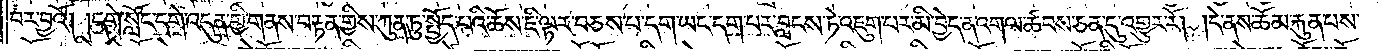བར་བྱའོ། །དགེ་སློང་དགེ་འདུན་གྱི་གནས་བརྟན་གྱིས་ཀུན་ཏུ་སྤྱོད་པའི་ཆོས་ཇི་ལྟར་བཅས་པ་དག་ཡང་དག་པར་བླངས་ཏེ་འཇུག་པར་མི་བྱེད་ན་འགལ་ཚབས་ཅན་དུ་འགྱུར་རོ། །དེ་ནས་ཆོམ་རྐུན་པས་
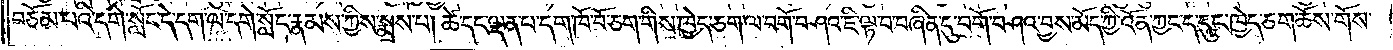བཅོམ་པའི་དགེ་སློང་དེ་དག་ལ་དགེ་སློང་རྣམས་ཀྱིས་སྨྲས་པ། ཚེ་དང་ལྡན་པ་དག་ཁོ་བོ་ཅག་གིས་ཁྱེད་ཅག་ལ་བགོ་བཤའ་ཇི་ལྟ་བ་བཞིན་དུ་བགོ་བཤའ་བྱས་མོད་ཀྱི་འོན་ཀྱང་ད་དུང་ཁྱེད་ཅག་ཆོས་གོས་
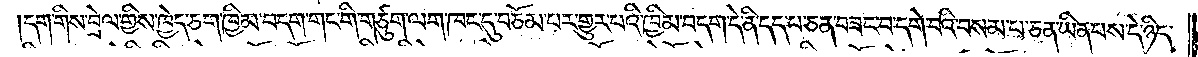།དག་གིས་བྲེལ་གྱིས་ཁྱེད་ཅག་ཁྱིམ་བདག་གང་གི་གཙུག་ལག་ཁང་དུ་བཅོམ་པར་གྱུར་པའི་ཁྱིམ་བདག་དེ་ནི་དད་པ་ཅན་བཟང་བ་དགེ་བའི་བསམ་པ་ཅན་ཡིན་པས་དེ་ཉིད་
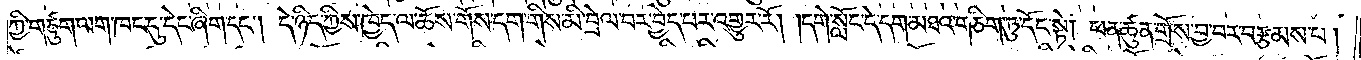ཀྱི་གཙུག་ལག་ཁང་དུ་དེང་ཞིག་དང༌། དེ་ཉིད་ཀྱིས་ཁྱེད་ལ་ཆོས་གོས་དག་གིས་མི་བྲེལ་བར་བྱེད་པར་འགྱུར་རོ། །དགེ་སློང་དེ་དག་མཐའ་གཅིག་ཏུ་དོང་སྟེ། ཕན་ཚུན་གྲོས་བྱ་བར་བརྩམས་པ།
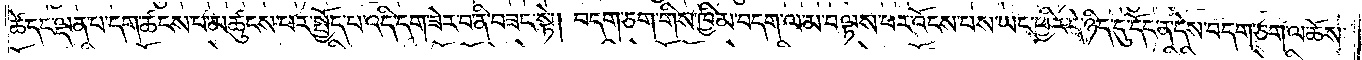ཚེ་དང་ལྡན་པ་དག་ཚངས་པར་མཚུངས་པར་སྤྱོད་པ་འདི་དག་ཟེར་བ་ནི་བཟང་སྟེ། བདག་ཅག་གིས་ཁྱིམ་བདག་ལ་མ་བལྟས་པར་འོངས་པས་ཡང་ཕྱིར་དེ་ཉིད་དུ་དོང་ན་དེས་བདག་ཅག་ལ་ཆོས་
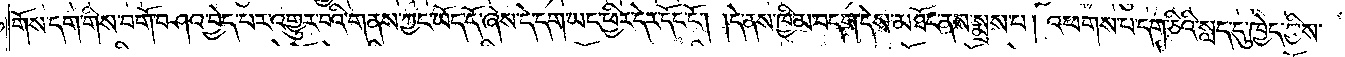གོས་དག་གིས་བགོ་བཤའ་བྱེད་པར་འགྱུར་བའི་གནས་ཀྱང་ཡོད་དོ་ཞེས་དེ་དག་ཡང་ཕྱིར་དེར་དོང་ངོ༌། །དེ་ནས་ཁྱིམ་བདག་དེས་མཐོང་ནས་སྨྲས་པ། འཕགས་པ་དག་ཅིའི་སླད་དུ་ཁྱེད་ཀྱིས་
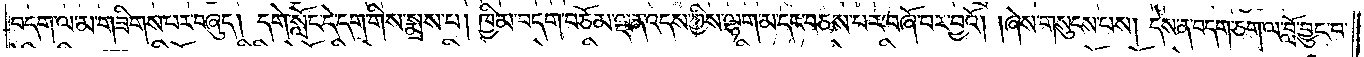བདག་ལ་མ་གཟིགས་པར་བཞུད། དགེ་སློང་དེ་དག་གིས་སྨྲས་པ། ཁྱིམ་བདག་བཅོམ་ལྡན་འདས་ཀྱིས་ལྷག་མ་དང་བཅས་པར་བཞོ་བར་བྱའོ། །ཞེས་གསུངས་པས། དེས་ན་བདག་ཅག་ལ་བློ་བྱུང་བ་
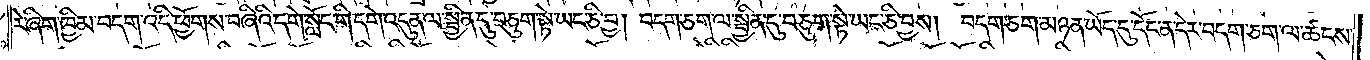རེ་ཞིག་ཁྱིམ་བདག་འདི་ཕྱོགས་བཞིའི་དགེ་སློང་གི་དགེ་འདུན་ལ་སྦྱིན་དུ་བཅུག་སྟེ་ཡང་ཅི་བྱ། བདག་ཅག་ལ་སྦྱིན་དུ་བཅུག་སྟེ་ཡང་ཅི་བྱས། བདག་ཅག་མཉན་ཡོད་དུ་དོང་ན་དེར་བདག་ཅག་ལ་ཚངས་
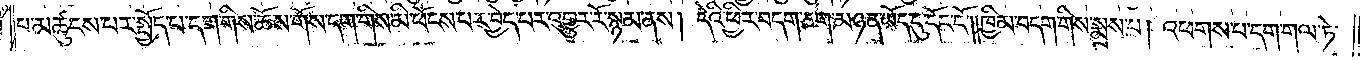པ་མཚུངས་པར་སྤྱོད་པ་དག་གིས་ཆོས་གོས་དག་གིས་མི་ཕོངས་པར་བྱེད་པར་འགྱུར་རོ་སྙམ་ནས། དེའི་ཕྱིར་བདག་ཅག་མཉན་ཡོད་དུ་དོང་ངོ༌༎ཁྱིམ་བདག་གིས་སྨྲས་པ། འཕགས་པ་དག་གལ་ཏེ་
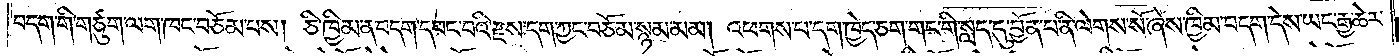བདག་གི་གཙུག་ལག་ཁང་བཅོམ་པས། ཅི་ཁྱིམ་ན་བདག་དབང་བའི་རྫས་དག་ཀྱང་བཅོམ་སྙམ་མམ། འཕགས་པ་དག་ཁྱེད་ཅག་གང་གི་སླད་དུ་བྱོན་པ་ནི་ལེགས་སོ་ཞེས་ཁྱིམ་བདག་དེས་ཡང་རྒྱ་ཆེར་
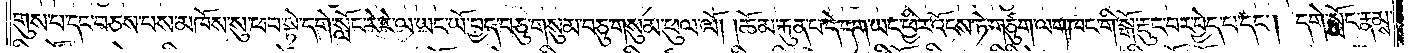གུས་པ་དང་བཅས་པས་མཁོས་སུ་ཕབ་སྟེ་དགེ་སློང་རེ་རེ་ལ་ཡང་ཡོ་བྱད་བཅུ་གསུམ་བཅུ་གསུམ་ཕུལ་ལོ། །ཆོམ་རྐུན་པ་དེ་དག་ཡང་ཕྱིར་འོངས་ཏེ་གཙུག་ལག་ཁང་གི་སྒོ་རྡུང་བར་བྱེད་པ་དང༌། དགེ་སློང་རྣམས་
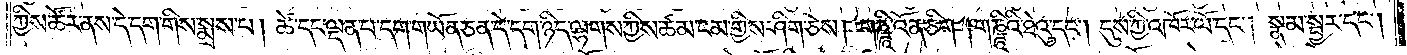ཀྱིས་ཚོར་ནས་དེ་དག་གིས་སྨྲས་པ། ཚེ་དང་ལྡན་པ་དག་གཡོན་ཅན་དེ་དག་ཉིད་ལྷགས་ཀྱིས་ཚམ་ངམ་གྱིས་ཤིག་ཅེས། གཎྜཱི་འོན་ཅིག །གཎྜཱིའི་ཐེའུ་དང༌། དུས་ཀྱི་འཁོར་ལོ་དང༌། སྣམ་སྦྱར་དང༌།
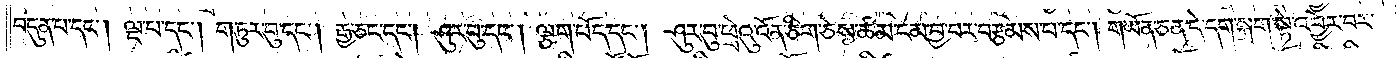བདུན་པ་དང༌། ལྔ་པ་དང༌། གཏུར་བུ་དང༌། རྒྱ་ཅང་དང༌། ཤུར་བུ་དང༌། ལྕག་པོད་དང༌། ཤུར་བུ་ཕྲེའུ་འོན་ཅིག་ཅེས་ཚམ་ངམ་བྱ་བར་བརྩམས་པ་དང༌། གཡོན་ཅན་དེ་དག་སྐྲག་སྟེ་འབྱེར་བར་
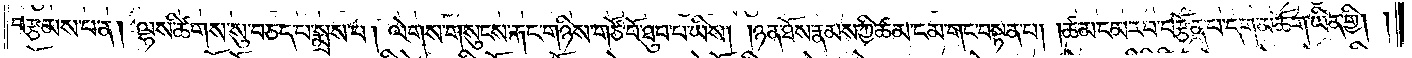བརྩམས་པ་ན། ལྷས་ཚིགས་སུ་བཅད་པ་སྨྲས་པ། ལེགས་གསུངས་རྐང་གཉིས་གཙོ་བོ་ཐུབ་པ་ཡིས། །ཉན་ཐོས་རྣམས་ཀྱི་ཚམ་ངམ་གང་བསྟན་པ། །ཚམ་ངམ་རབ་བརྩོན་པ་དག་མཆོག་ཡིན་གྱི། །
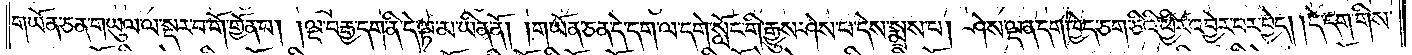གཡོན་ཅན་གཡུལ་ལ་སྡར་བ་གོ་གྱོན་པ། །ལྔ་བརྒྱ་དག་ནི་དེ་ལྟ་མ་ཡིན་ནོ། །གཡོན་ཅན་དེ་དག་ལ་དགེ་སློང་གི་རྒྱུས་ཤེས་པ་དེས་སྨྲས་པ། ཤེས་ལྡན་དག་ཁྱེད་ཅག་ཅིའི་ཕྱིར་འབྱེར་བར་བྱེད། །དེ་དག་གིས་
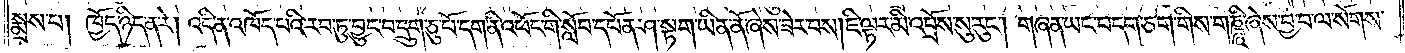སྨྲས་པ། ཁྱོད་ཉིད་ན་རེ། འདི་ན་འཁོད་པའི་རབ་ཏུ་བྱུང་བ་དྲུག་བཅུ་པོ་དག་ནི་འཕོང་གི་སློབ་དཔོན་ཤ་སྟག་ཡིན་ནོ་ཞེས་ཟེར་བས། ཇི་ལྟར་མི་འབྲོས་སུ་རུང༌། གཞན་ཡང་བདག་ཅག་གིས་གཎྜཱི་ཞེས་བྱ་བ་ལ་སོགས་
